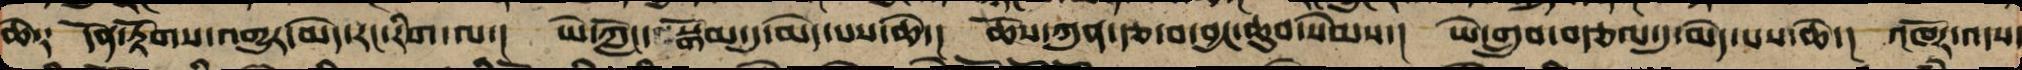ཆེ༑  དོན་རྟོག་འགྱུར་མེད་རང་རིག་ལ་།  ཡེ་ཀློང་ སྒོམ་དུ་མེད་པས་ཆེ་།  ཆོས་ཀུན་རྩ་བ་བྱང་ཆུབ་སེམས་།  ཡེ་གྲུབ་བརྩལ་དུ་མེད་པས་ཆེ་།  འཁོར་འདས་
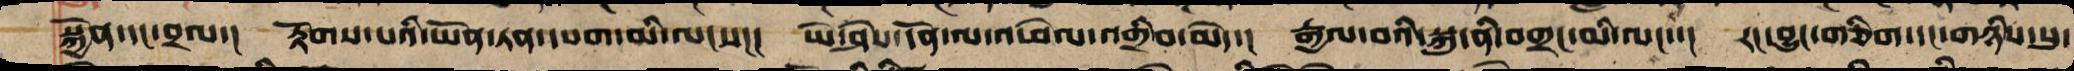སྐྱོན་དང་བྲལ་། རྟོགས་པའི་ཡོན་ཏན་དཔག་མི་ལངས་། ཡེ་ཤེས་དོན་ལ་འཕེལ་འགྲིབ་མེད་། རྒྱལ་བའི་སྐུ་ནི་བགྲང་མི་ལང་་། རང་བྱུང་གཅིག་དང་གཉིས་སུ་
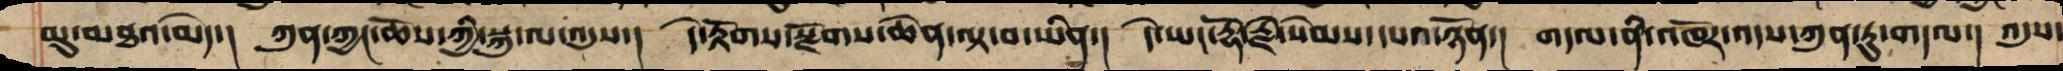མུ་མཐའ་མེད་། ཀུན་ཀྱང་ཆོས་ཀྱི་སྐུ་ལ་འདུས་། དེ་རྟོགས་སྫོགས་ཆེན་ལྟ་བ་ཡིན་། དེ་ཡང་རྡོ་རྗེ་སེམས་དཔའ་ཉོན་། གདལ་ནི་འཁོར་འདས་ཀུན་ཏུ་གདལ་། འདུས་
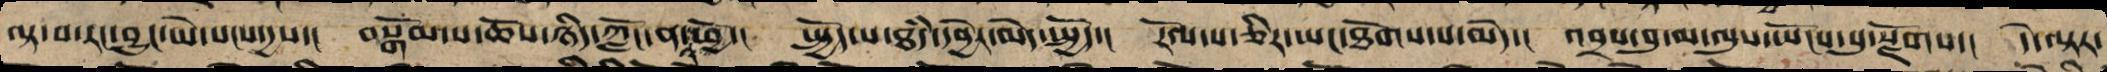ལྟ་བ་རང་བྱུང་ཡེ་སངས་དྱས་། བསྒོམ་པ་ཆོས་ཉིད་ཀློང་ན་འཕྱོ་། སྤྱོད་པ་ཐཾད་བྱར་མེད་སྤྱོད་། རོལ་པ་ཅིར་ཡང་ཐོགས་པ་མེད་། འབྲས་བུ་མ་ལུས་ཡོངས་སུ་སྫོགས་། དེ་ལྟར་
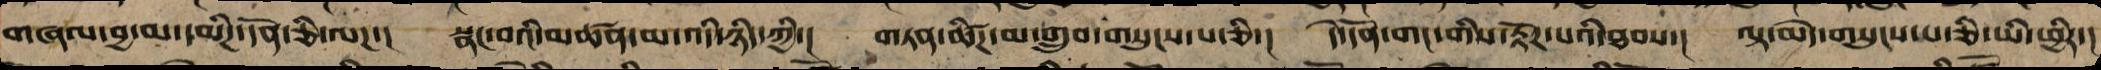གཞལ་བྱ་མི་དམིཌ་དོན་ཅི་ལཌ་། སྣང་བའི་མཚན་མ་འདི་ཉིད་ཀྱི་། གཏན་ཚིཌ་མ་གྲུབ་གསུངས་པ་ཅི་། དེ་དོན་གང་གིས་རྟོཌ་པའི་ཐབས་། ལྟ་མེད་གསུངས་པ་ཅི་ཡི་ཕྱིར་།
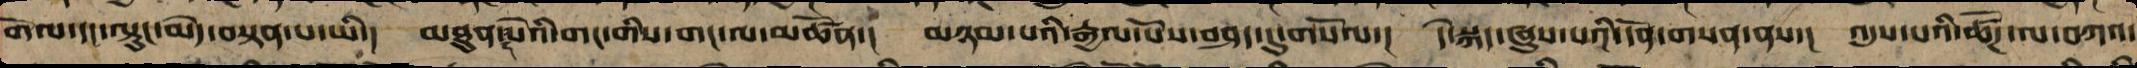གོལ་དང་ལྟུང་མེད་བསྟན་པ་ཡི་། མཐུན་དཔེ་གང་གིས་གང་ལ་མཚོན་། མཉམ་པའི་རྒྱལ་པོས་བཤད་དུ་གསོལ་། དེ་སྐད་ཞུས་པའི་དོན་གསན་ནས་། འདུས་པའི་ཚོཌ་ལ་བཀའ་
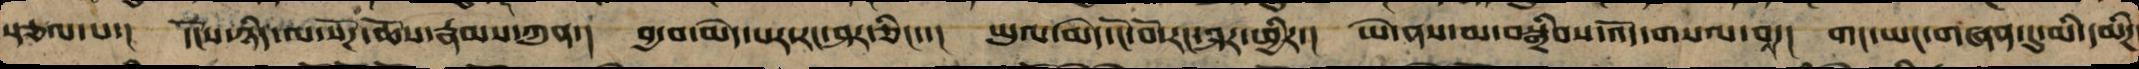སྩལ་པ་། དངོས་ཉིད་ལ་སོཌ་ཆོས་རྣམས་ཀུན་། བྱ་བ་མེད་པར་རང་ཤར་ཅིང་་། ཡུལ་མེད་ངོ་བོ་རང་ཤར་ཕྱིར་། ཡེ་ནས་མ་བསྒྲིབས་འོད་གསལ་བས་། གང་ཡང་གཞན་དུ་མི་དམིཌ
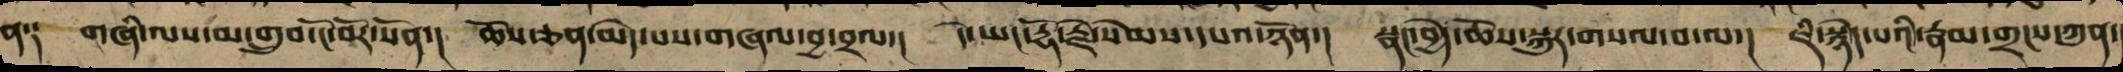ན༑ གཞི་ལས་མ་གྲུབ་ངོ་བོར་སོན་། ཆོས་ཅན་མེད་པས་གཞལ་བྱ་བྲལ་། དེ་ཡང་རྡོ་རྗེ་སེམས་དཔའ་ཉོན་། སྣང་བྱེད་ཆོས་སྐུར་གསལ་བ་ལ་། ཇི་སྙེད་པའི་རྣམ་གྲངས་ཀུན་
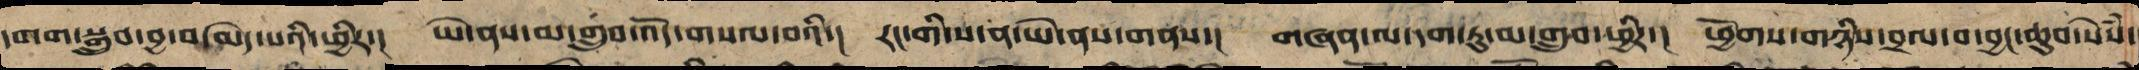དགག་བསྒྲུབ་བྱ་བ་མེད་པའི་ཕྱིར་། ཡེ་ནས་མ་གྲུབ་འོད་གསལ་བར་། རང་གི་ས་ན་ཡེ་ནས་གནས་། གཞན་ལ་བདག་ཏུ་མ་གྲུབ་ཕྱིར་། ཕྱོགས་གཉིས་བྲལ་བའི་བྱང་ཆུབ་སེཾས་
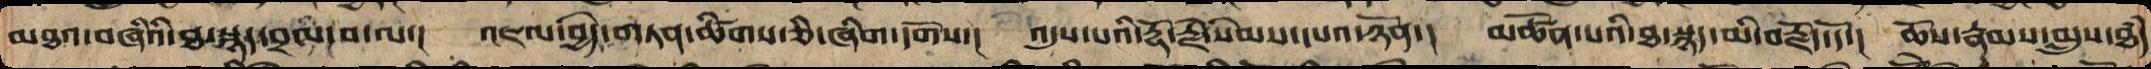མཐའ་བཞིའི་ཐ་སྙད་བྲལ་བ་ལ་། འཇལ་བྱེད་གཏན་ཚིགས་ཅི་ཞིག་དགོས་། དེ་ཡང་རྡོ་རྗེ་སེམས་དཔའ་ཉོན་། མཚོན་པའི་ཐ་སྙད་མི་བརྗོད་དོ་། ཆོས་རྣམས་མུས་ཐཾད
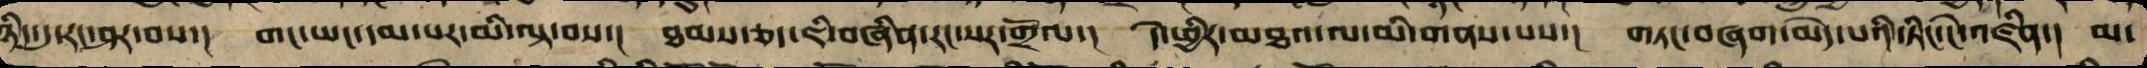ཉིད་དུ་རང་ཤར་བས་། གང་ཡང་དམ་པར་མི་བལྟ་བས་། ཐམས་ཅད་ཇི་བཞིན་རང་སར་གྲོལ་། དེ་ཕྱིར་མཐའ་ལ་མི་གནས་པས་། གཏང་གཞག་མེད་པའི་ཏིང་ངེ་འཛིན་། མ་
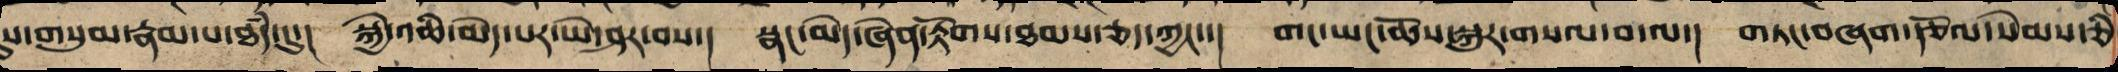དུས་གསུམ་རྣམ་པ་ཐཾད་་དུ། སྐྱེ་འཆི་མེད་པར་ཡེ་ཤར་བས་། སྣང་མེད་ཞེན་རྟོག་ཐམས་ཅད་ཀྱང་་། གང་ཡང་ཆོས་སྐུར་གསལ་བ་ལས་། གཏང་གཞག་རྩོལ་སེམས་ཅི
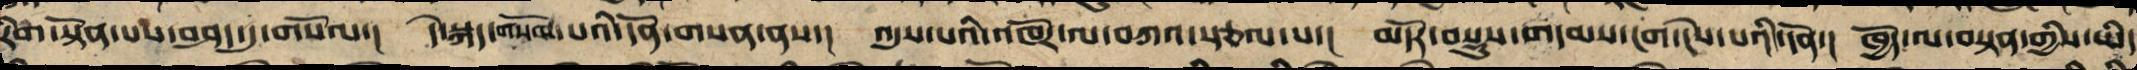རིག་སྟོན་པས་བཤད་དུ་གསོལ་། དེ་སྐད་གསོལ་པའི་དོན་གསན་ནས་། འདུས་པའི་འཁོར་ལ་བཀའ་སྩལ་པ་། མདོར་བསྡུས་གདམས་ངག་ངེས་པའི་དོན་། ཁྱོད་ལ་བསྟན་གྱིས་ཡིད
